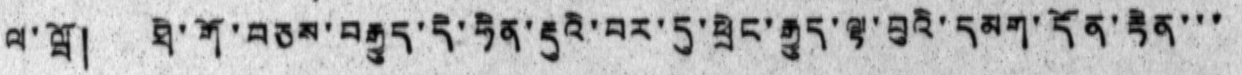ལ་ཝོ། ཐེ་གོ་བཅས་བརྒྱུད་དེ་ཧིན་རྡུའི་བར་དུ་ཕྲེང་རྒྱུད་ལྟ་བུའི་དམག་དོན་རྟེན་་་
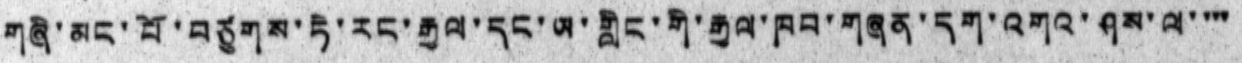གཞི་མང་པོ་བཙུགས་ཏེ་རང་རྒྱལ་དང་ཡ་གླིང་གི་རྒྱལ་ཁབ་གཞན་དག་འགའ་ཤས་ལ་ ་་་
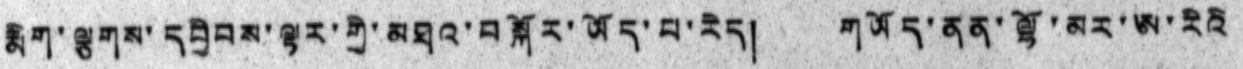རྨིག་ལྕགས་དབྱིབས་ལྟར་གྱི་མཐའ་བསྐོར་ཡོད་པ་རེད། གཡོད་ནན་ལྷོ་མར་ཨ་རིའི
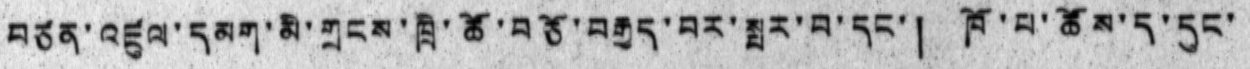བཙན་འཛུལ་དམག་མི་གྲངས་ཁྲི་ཚོ་བཅོ་བརྒྱད་བར་སྤར་བ་དང་། ཁོ་པ་ཚོས་ད་དུང་
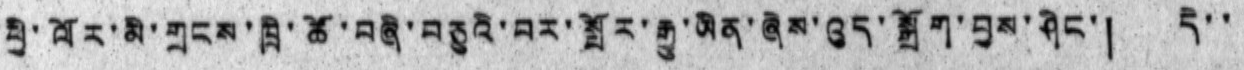ཕྱི་ལོར་མི་གྲངས་ཁྲི་ཚོ་བཞི་བཅུའི་བར་སྤོར་རྒྱུ་ཡིན་ཞེས་འུད་སྒྲོག་བྱས་ཤིང་། དེ་ ་
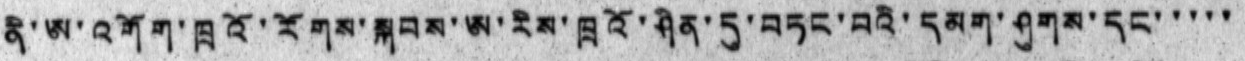ནི་ཨ་འགོག་ཁྲའོ་རོགས་སྐབས་ཨ་རིས་ཁྲའོ་ཤིན་དུ་བཏང་བའི་དམག་ཤུགས་དང་་་་་
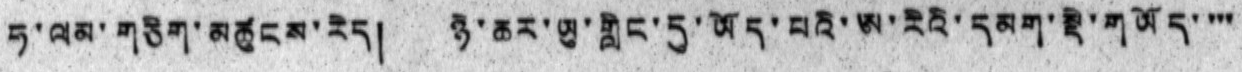ཧ་ལམ་གཅིག་མཚུངས་རེད། ཉེ་ཆར་ཡུ་གླིང་དུ་ཡོད་པའི་ཨ་རིའི་དམག་སྡེ་གཡོད་ ་་་
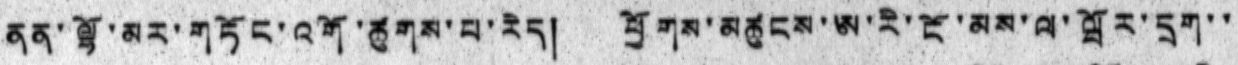ནན་ལྷོ་མར་གཏོང་འགོ་ཚུགས་པ་རེད། ཕྱོགས་མཚུངས་ཨ་རི་ངོ་མས་ལ་ཝོར་དྲག་་་
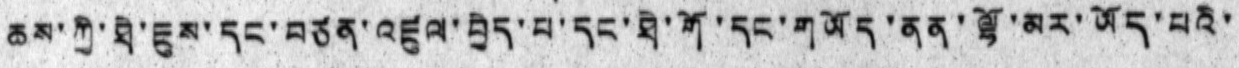ཆས་ཀྱི་ཐེ་ཇུས་དང་བཙན་འཛུལ་བྱེད་པ་དང་ཐེ་གོ་དང་གཡོད་ནན་ལྷོ་མར་ཡོད་པའི་
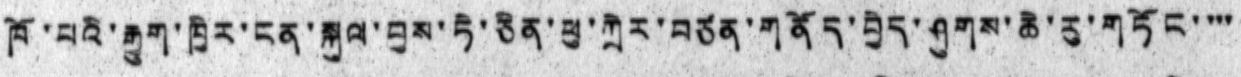ཁོ་པའི་རྒྱུག་ཁྱིར་ངན་སྐུལ་བྱས་ཏེ་ཅིན་ཕུ་ཀྲེར་བཙན་གནོད་བྱེད་ཤུགས་ཆེ་རུ་གཏོང་ ་་་
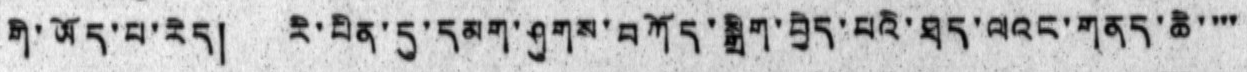གི་ཡོད་པ་རེད། རི་པིན་དུ་དམག་ཤུགས་བཀོད་སྒྲིག་བྱེད་པའི་ཐད་ལའང་གནད་ཆེ་ ་་་
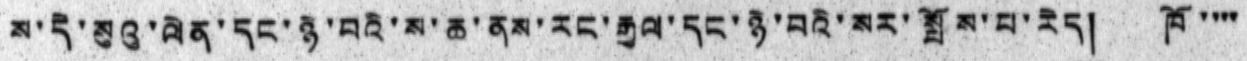ས་དེ་སུའུ་ལེན་དང་ཉེ་བའི་ས་ཆ་ནས་རང་རྒྱལ་དང་ཉེ་བའི་སར་སྤོས་པ་རེད། ཁོ ་་་་
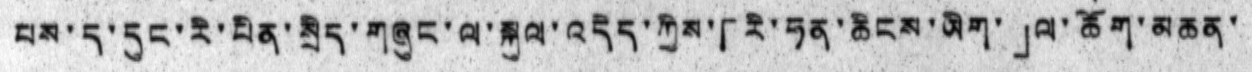པས་ད་དུང་རི་པིན་སྲིད་གཞུང་ལ་སྐུལ་འདེད་ཀྱིས་「རི་ཧན་ཆིངས་ཡིག་」ལ་ཆོག་མཆན་
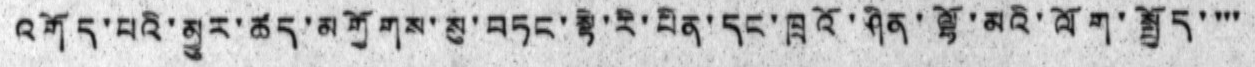འགོད་པའི་མྱུར་ཚད་མགྱོགས་སུ་བཏང་སྟེ་རི་པིན་དང་ཁྲའོ་ཤིན་ལྷོ་མའི་ལོག་སྤྱོད་ ་་་
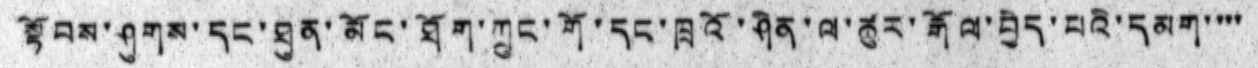སྟོབས་ཤུགས་དང་ཐུན་མོང་ཐོག་ཀྲུང་གོ་དང་ཁྲའོ་ཤིན་ལ་ཚུར་རྒོལ་བྱེད་པའི་དམག་་་་
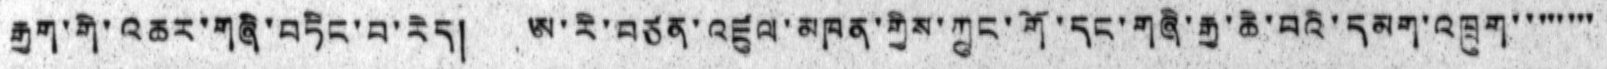རྒྱག་གི་འཆར་གཞི་བཏིང་བ་རེད། ཨ་རི་བཙན་འཛུལ་མཁན་གྱིས་ཀྲུང་གོ་དང་གཞི་རྒྱ་ཆེ་བའི་དམག་འཁྲུག་་་་་་་་
